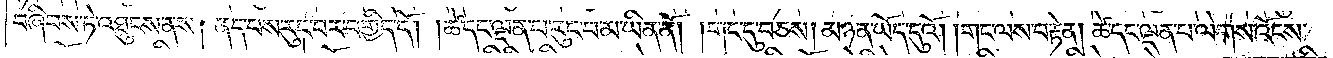བཞིབས་ཏེ་འཐུངས་ནས། ནད་པས་རུང་བར་བགྱིད་དོ། །ཚེ་དང་ལྡན་པ་རུང་བ་མ་ཡིན་ནོ། །གང་དུ་བཅས། མཉན་ཡོད་དུའོ། །གང་ལས་བརྟེན། ཚེ་དང་ལྡན་པ་ལེགས་འོངས་
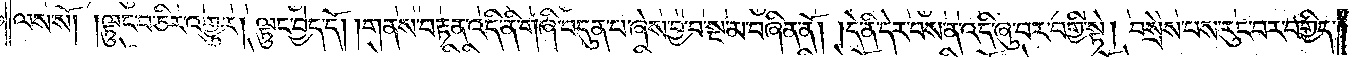ལས་སོ། །ལྟུང་བ་ཅིར་འགྱུར། ལྟུང་བྱེད་དོ། །གནས་བརྟན་འདི་ནི་གཞི་བདུན་པ་ཞེས་བྱ་བ་སྔ་མ་བཞིན་ནོ། །དེ་ནི་དེར་བས་ན་འདི་ཞུ་བར་བགྱི་སྟེ། བསྲེས་པས་རུང་བར་བགྱིད་
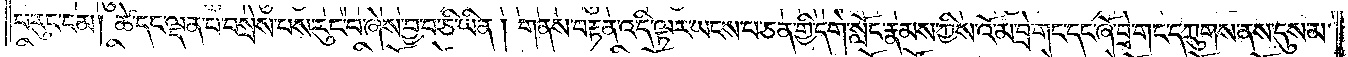པ་རུང་ངམ། ཚེ་དང་ལྡན་པ་བསྲེས་པས་རུང་བ་ཞེས་བྱ་བ་ཅི་ཡིན། གནས་བརྟན་འདི་ལྟར་ཡངས་པ་ཅན་གྱི་དགེ་སློང་རྣམས་ཀྱིས་འོ་མ་བྲེ་གང་དང་ཞོ་བྲེ་གང་དཀྲུགས་ནས་དུས་མ་
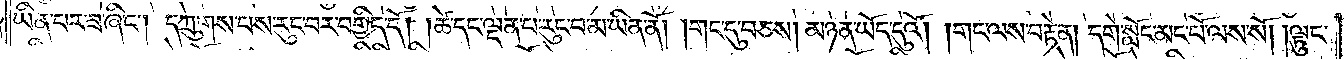ཡིན་པར་ཟ་ཞིང༌། དཀྲུགས་པས་རུང་བར་བགྱིད་དོ། །ཚེ་དང་ལྡན་པ་རུང་བ་མ་ཡིན་ནོ། །གང་དུ་བཅས། མཉན་ཡོད་དུའོ། །གང་ལས་བརྟེན། དགེ་སློང་མང་པོ་ལས་སོ། །ལྟུང་
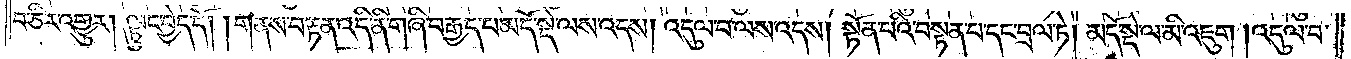བ་ཅིར་འགྱུར། ལྟུང་བྱེད་དོ། །གནས་བརྟན་འདི་ནི་གཞི་བརྒྱད་པ་མདོ་སྡེ་ལས་འདས། འདུལ་བ་ལས་འདས། སྟོན་པའི་བསྟན་པ་དང་བྲལ་ཏེ། མདོ་སྡེ་ལ་མི་འཇུག །འདུལ་བ་
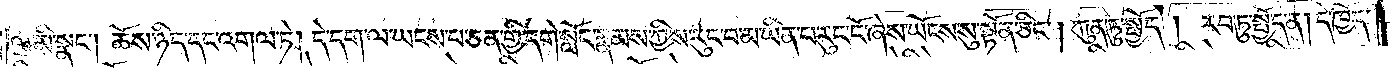ལ་མི་སྣང༌། ཆོས་ཉིད་དང་འགལ་ཏེ། དེ་དག་ལ་ཡངས་པ་ཅན་གྱི་དགེ་སློང་རྣམས་ཀྱིས་རུང་བ་མ་ཡིན་པ་རུང་ངོ་ཞེས་ཡོངས་སུ་སྟོན་ཅིང༌། ཀུན་ཏུ་སྤྱོད། རབ་ཏུ་སྤྱོད་ན། དེ་ཁྱོད་
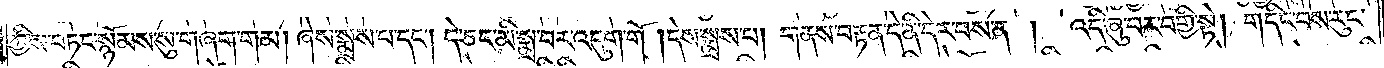ཀྱིས་བཏང་སྙོམས་སུ་གཞག་གམ། ཞེས་སྨྲས་པ་དང༌། དེ་ཅང་མི་སྨྲ་བར་འདུག་གོ །དེས་སྨྲས་པ། གནས་བརྟན་དེ་ནི་དེར་བས་ན། འདི་ཞུ་བར་བགྱི་སྟེ། གདིང་བས་རུང་
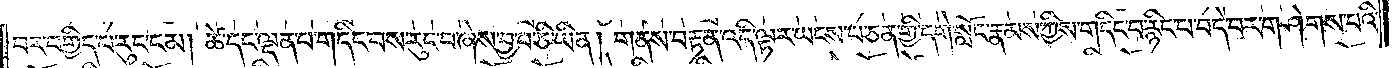བར་བགྱིད་པ་རུང་ངམ། ཚེ་དང་ལྡན་པ་གདིང་བས་རུང་བ་ཞེས་བྱ་བ་ཅི་ཡིན། གནས་བརྟན་འདི་ལྟར་ཡངས་པ་ཅན་གྱི་དགེ་སློང་རྣམས་ཀྱིས་གདིང་བ་རྙིང་པ་བདེ་བར་གཤེགས་པའི་
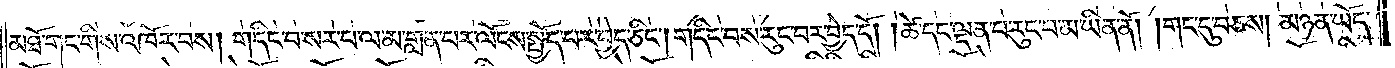མཐོ་གང་གིས་འཁོར་བས། གདིང་བ་སར་པ་ལ་མ་གླན་པར་ལོངས་སྤྱོད་པར་བྱེད་ཅིང༌། གདིང་བས་རུང་བར་བྱེད་དོ། །ཚེ་དང་ལྡན་པ་རུང་བ་མ་ཡིན་ནོ། །གང་དུ་བཅས། མཉན་ཡོད་
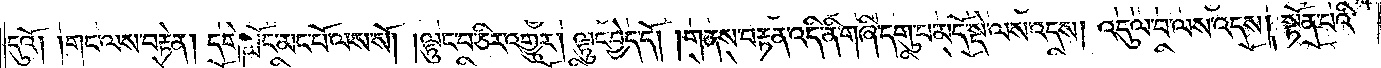དུའོ། །གང་ལས་བརྟེན། དགེ་སློང་མང་པོ་ལས་སོ། །ལྟུང་བ་ཅིར་འགྱུར། ལྟུང་བྱེད་དོ། །གནས་བརྟན་འདི་ནི་གཞི་དགུ་པ་མདོ་སྡེ་ལས་འདས། འདུལ་བ་ལས་འདས། སྟོན་པའི་
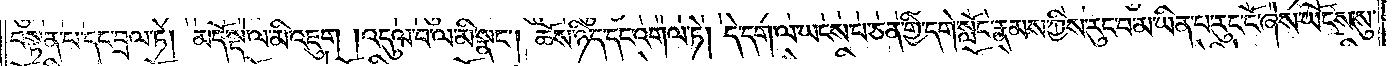བསྟན་པ་དང་བྲལ་ཏེ། མདོ་སྡེ་ལ་མི་འཇུག །འདུལ་བ་ལ་མི་སྣང༌། ཆོས་ཉིད་དང་འགལ་ཏེ། དེ་དག་ལ་ཡངས་པ་ཅན་གྱི་དགེ་སློང་རྣམས་ཀྱིས་རུང་བ་མ་ཡིན་པ་རུང་ངོ་ཞེས་ཡོངས་སུ་
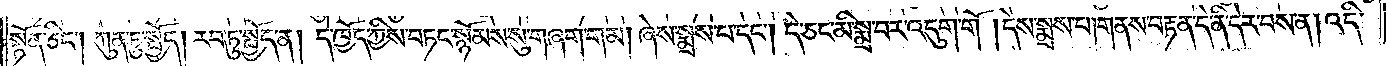སྟོན་ཅིང༌། ཀུན་ཏུ་སྤྱོད། རབ་ཏུ་སྤྱོད་ན། དེ་ཁྱོད་ཀྱིས་བཏང་སྙོམས་སུ་གཞག་གམ། ཞེས་སྨྲས་པ་དང༌། དེ་ཅང་མི་སྨྲ་བར་འདུག་གོ། །དེས་སྨྲས་པ། གནས་བརྟན་དེ་ནི་དེར་བས་ན། འདི་
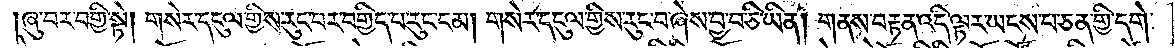།ཞུ་བར་བགྱི་སྟེ། གསེར་དངུལ་གྱིས་རུང་བར་བགྱིད་པ་རུང་ངམ། གསེར་དངུལ་གྱིས་རུང་བ་ཞེས་བྱ་བ་ཅི་ཡིན། གནས་བརྟན་འདི་ལྟར་ཡངས་པ་ཅན་གྱི་དགེ་
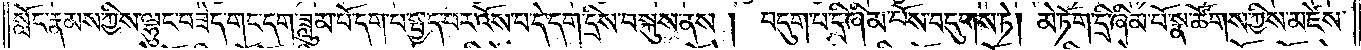སློང་རྣམས་ཀྱིས་ལྷུང་བཟེད་གང་དག་ཟླུམ་པོ་དག་པ་སྤྱད་པར་འོས་པ་དེ་དག་དྲིས་བསྐུས་ནས། བདུག་པ་དྲི་ཞིམ་པོས་བདུགས་ཏེ། མེ་ཏོག་དྲི་ཞིམ་པོ་སྣ་ཚོགས་ཀྱིས་མཛེས་
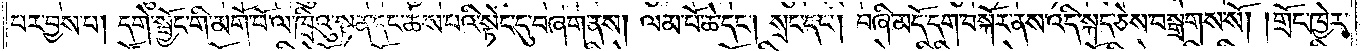པར་བྱས་པ། དགེ་སྦྱོང་གི་མགོ་བོ་ལ་ཁྲིའུ་སྟན་དང་ཆས་པའི་སྟེང་དུ་བཞག་ནས། ལམ་པོ་ཆེ་དང༌། སྲང་དང༌། བཞི་མདོ་དག་བསྐོར་ནས་འདི་སྐད་ཅེས་བསྒྲགས་སོ། །གྲོང་ཁྱེར་
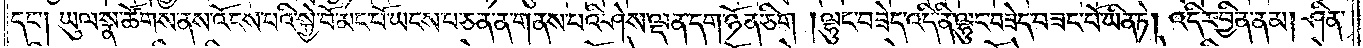དང༌། ཡུལ་སྣ་ཚོགས་ནས་འོངས་པའི་སྐྱེ་བོ་མང་པོ་ཡངས་པ་ཅན་ན་གནས་པའི་ཤེས་ལྡན་དག་ཉོན་ཅིག །ལྷུང་བཟེད་འདི་ནི་ལྷུང་བཟེད་བཟང་པོ་ཡིན་ཏེ། འདིར་བྱིན་ནམ། ཤིན་
